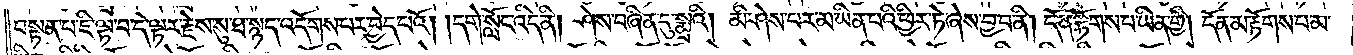བསྟན་པ་ཇི་ལྟ་བ་དེ་ལྟར་རྗེས་སུ་ཐ་སྙད་འདོགས་པར་བྱེད་པའོ། །དགེ་སློང་འདི་ནི། ཤེས་བཞིན་དུ་སྨྲའི། མི་ཤེས་པར་མ་ཡིན་པའི་ཕྱིར་ཏེ་ཞེས་བྱ་བ་ནི། དོན་རྟོགས་པ་ཡིན་གྱི། དོན་མ་རྟོགས་པ་མ་
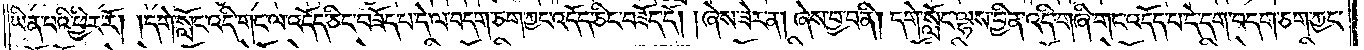ཡིན་པའི་ཕྱིར་རོ། །དགེ་སློང་འདི་གང་ལ་འདོད་ཅིང་བཟོད་པ་དེ་ལ་བདག་ཅག་ཀྱང་འདོད་ཅིང་བཟོད་དོ། །ཞེས་ཟེར་ན། ཞེས་བྱ་བ་ནི། དགེ་སློང་ལྷས་བྱིན་འདི་གཞི་གང་འདོད་པ་དེ་དག་བདག་ཅག་ཀྱང་
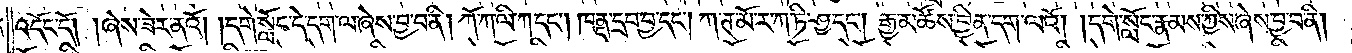འདོང་དོ། །ཞེས་ཟེར་ནའོ། །དགེ་སློང་དེ་དག་ལ་ཞེས་བྱ་བ་ནི། ཀོ་ཀ་ལི་ཀ་དང༌། ཁནྡ་དྲབ་བྱ་དང༌། ཀ་ཊ་མོ་ར་ཀ་ཏི་ཤྱ་དང༌། རྒྱ་མཚོས་བྱིན་དག་ལའོ། །དགེ་སློང་རྣམས་ཀྱིས་ཞེས་བྱ་བ་ནི།
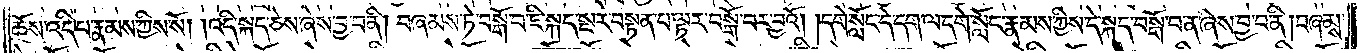ཆོས་འདི་པ་རྣམས་ཀྱིས་སོ། །འདི་སྐད་ཅེས་ཞེས་བྱ་བ་ནི། བཞམས་ཏེ་བསྒོ་བ་ཇི་སྐད་སྔར་བསྟན་པ་ལྟར་བསྒོ་བར་བྱའོ། །དགེ་སློང་དེ་དག་ལ་དགེ་སློང་རྣམས་ཀྱིས་དེ་སྐད་བསྒོ་བ་ན་ཞེས་བྱ་བ་ནི། བཞམས་
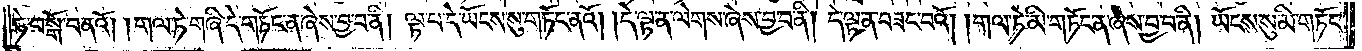ཏེ་བསྒོ་བ་ནའོ། །གལ་ཏེ་གཞི་དེ་གཏོང་ན་ཞེས་བྱ་བ་ནི། ལྟ་བ་དེ་ཡོངས་སུ་གཏོང་ནའོ། །དེ་ལྟ་ན་ལེགས་ཞེས་བྱ་བ་ནི། དེ་ལྟ་ན་བཟང་བའོ། །གལ་ཏེ་མི་གཏོང་ན་ཞེས་བྱ་བ་ནི། ཡོངས་སུ་མི་གཏོང་
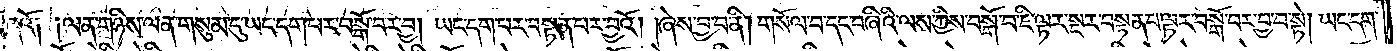ནའོ༑ ༑ལན་གཉིས་ལན་གསུམ་དུ་ཡང་དག་པར་བསྒོ་བར་བྱ། ཡང་དག་པར་བསྟན་པར་བྱའོ། །ཞེས་བྱ་བ་ནི། གསོལ་བ་དང་བཞིའི་ལས་ཀྱིས་བསྒོ་བ་ཇི་ལྟར་སྔར་བསྟན་པ་ལྟར་བསྒོ་བར་བྱ་བ་སྟེ། ཡང་དག་
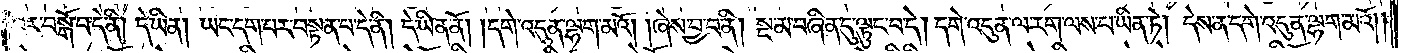པར་བསྒོ་བ་དེ་ནི། དེ་ཡིན། ཡང་དག་པར་བསྟན་པ་དེ་ནི། དེ་ཡིན་ནོ། །དགེ་འདུན་ལྷག་མའོ། །ཞེས་བྱ་བ་ནི། སྔ་མ་བཞིན་དུ་ལྟུང་བ་དེ། དགེ་འདུན་ལ་རག་ལས་པ་ཡིན་ཏེ། དེས་ན་དགེ་འདུན་ལྷག་མའོ། །
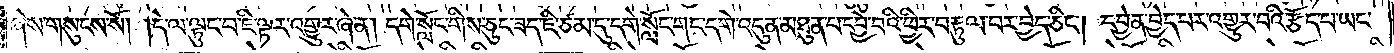ཞེས་གསུངས་སོ། །དེ་ལ་ལྟུང་བ་ཇི་ལྟར་འགྱུར་ཞེ་ན། དགེ་སློང་གིས་ཅུང་ཟད་ཇི་ཙམ་དུ་དགེ་སློང་གང་དགེ་འདུན་མཐུན་པ་དབྱེ་བའི་ཕྱིར་བརྟུལ་བར་བྱེད་ཅིང༌། དབྱེན་བྱེད་པར་འགྱུར་བའི་རྩོད་པ་ཡང་
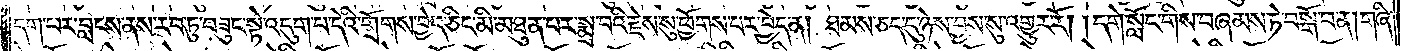དག་པར་བླངས་ནས་རབ་ཏུ་བཟུང་སྟེ་འདུག་པ་དེའི་གྲོགས་བྱེད་ཅིང་མི་མཐུན་པར་སྨྲ་བའི་རྗེས་སུ་ཕྱོགས་པར་བྱེད་ན། ཐམས་ཅད་དུ་ཉེས་བྱས་སུ་འགྱུར་རོ། །དགེ་སློང་གིས་བཞམས་ཏེ་བསྒོ་བ་ན།གཞི་
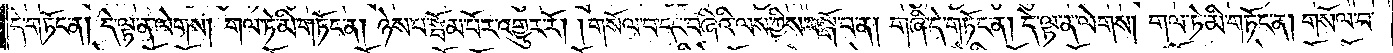དེ་གཏོང་ན། དེ་ལྟ་ན་ལེགས། གལ་ཏེ་མི་གཏོང་ན། ཉེས་པ་སྦོམ་པོར་འགྱུར་རོ། །གསོལ་བ་དང་བཞིའི་ལས་ཀྱིས་བསྒོ་བ་ན། གཞི་དེ་གཏོང་ན། དེ་ལྟ་ན་ལེགས། གལ་ཏེ་མི་གཏོང་ན། གསོལ་བ་
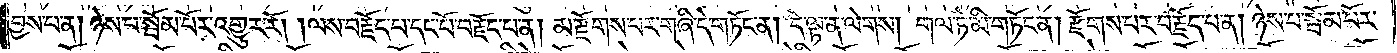བྱས་པ་ན། ཉེས་པ་སྦོམ་པོར་འགྱུར་རོ། །ལས་བརྗོད་པ་དང་པོ་བརྗོད་པ་ན། མ་རྫོགས་པར་གཞི་དེ་གཏོང་ན། དེ་ལྟ་ན་ལེགས། གལ་ཏེ་མི་གཏོང་ན། རྫོགས་པར་བརྗོད་པ་ན། ཉེས་པ་སྦོམ་པོར་
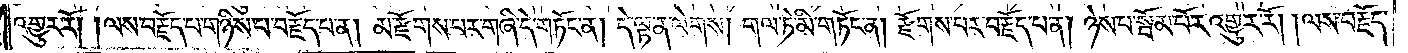འགྱུར་རོ། །ལས་བརྗོད་པ་གཉིས་པ་བརྗོད་པ་ན། མ་རྫོགས་པར་གཞི་དེ་གཏོང་ན། དེ་ལྟ་ན་ལེགས། གལ་ཏེ་མི་གཏོང་ན། རྫོགས་པར་བརྗོད་པ་ན། ཉེས་པ་སྦོམ་པོར་འགྱུར་རོ། །ལས་བརྗོད་
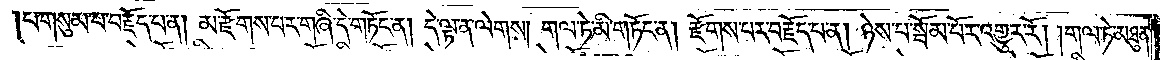པ་གསུམ་པ་བརྗོད་པ་ན། མ་རྫོགས་པར་གཞི་དེ་གཏོང་ན། དེ་ལྟ་ན་ལེགས། གལ་ཏེ་མི་གཏོང་ན། རྫོགས་པར་བརྗོད་པ་ན། ཉེས་པ་སྦོམ་པོར་འགྱུར་རོ། །གལ་ཏེ་མཐུན་
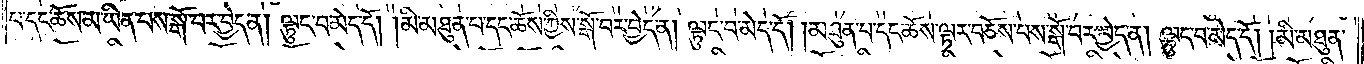པ་དང་ཆོས་མ་ཡིན་པས་སྒོ་བར་བྱེད་ན།  ལྟུང་བ་མེད་དོ། །མི་མཐུན་པ་དང་ཆོས་ཀྱིས་སྒོ་བར་བྱེད་ན།  ལྟུང་བ་མེད་དོ། །མཐུན་པ་དང་ཆོས་ལྟར་བཅོས་པས་སྒོ་བར་བྱེད་ན། ལྟུང་བ་མེད་དོ། །མི་མཐུན་
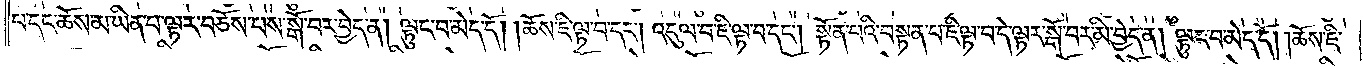པ་དང་ཆོས་མ་ཡིན་པ་ལྟར་བཅོས་པས་སྒོ་བར་བྱེད་ན། ལྟུང་བ་མེད་དོ། །ཆོས་ཇི་ལྟ་བ་དང༌། འདུལ་བ་ཇི་ལྟ་བ་དང༌། སྟོན་པའི་བསྟན་པ་ཇི་ལྟ་བ་དེ་ལྟར་སྒོ་བར་མི་བྱེད་ན། ལྟུང་བ་མེད་དོ། །ཆོས་ཇི་
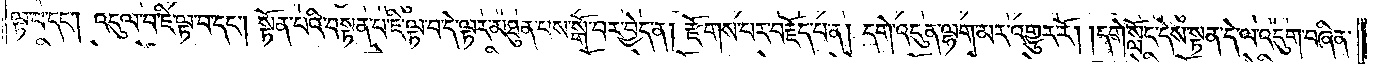ལྟ་བ་དང༌། འདུལ་བ་ཇི་ལྟ་བ་དང༌། སྟོན་པའི་བསྟན་པ་ཇི་ལྟ་བ་དེ་ལྟར་མཐུན་པས་སྒོ་བར་བྱེད་ན། རྫོགས་པར་བརྗོད་པ་ན། དགེ་འདུན་ལྷག་མར་འགྱུར་རོ། །དགེ་སློང་དེས་སྟན་དེ་ལ་འདུག་བཞིན་
